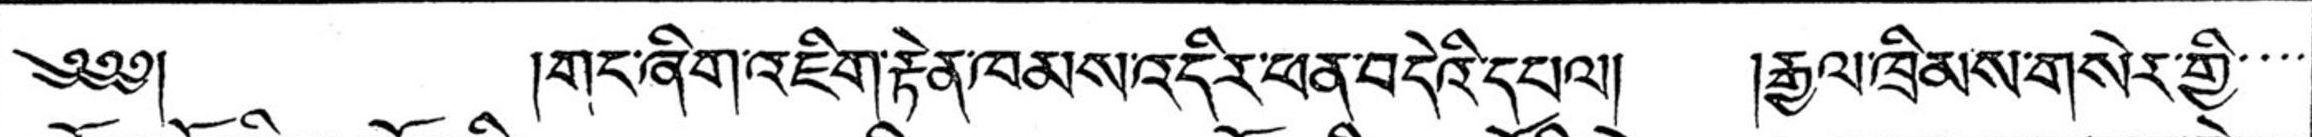༄༅༅། །གང་ཞིག་འཇིག་རྟེན་ཁམས་འདིར་ཕན་བདེའི་དཔལ། །རྒྱལ་ཁྲིམས་གསེར་གྱི་་་་
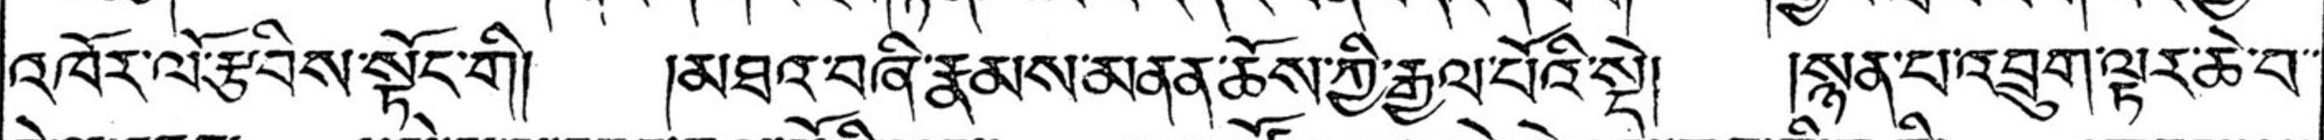འཁོར་ལོ་རྩབིས་སྟོང་གི། །མཐའ་བཞི་རྣམས་མནན་ཆོས་ཀྱི་རྒྱལ་པོའི་སྡེ། །སྙན་པའབྲུག་ལྟར་ཆེ་བ་་
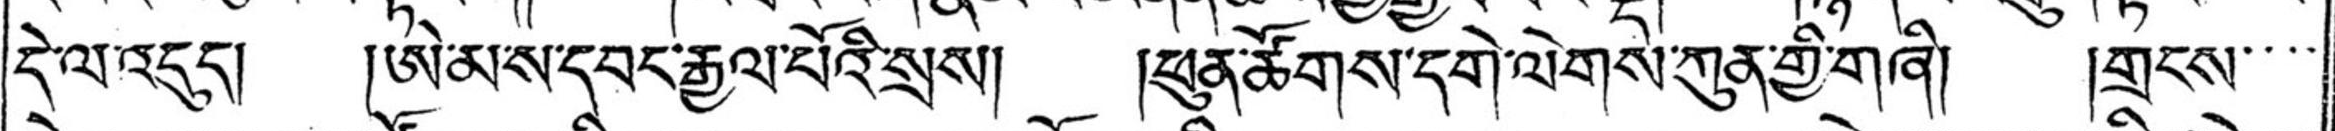དེ་ལ་འདུད། །ཨེ་མ་ས་དབང་རྒྱལ་པོའི་སྲས། །ཕུན་ཚོགས་དགེ་ལེགས་ཀུན་གྱི་གཞི། །གྲངས་་་་
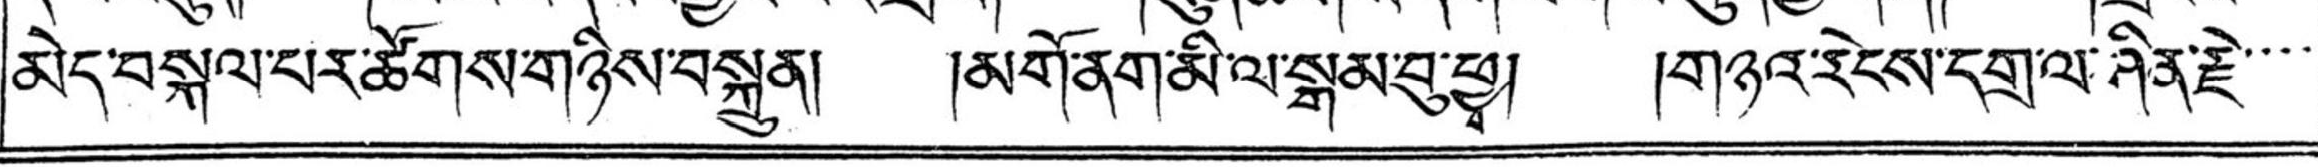མེད་བསྐལ་པར་ཚོགས་གཉིས་བསྐྲུན། །མགོ་ནག་མི་ལ་སྒམ་བུ་ཕྱྭ། །གཉའ་རེངས་དགྲལ་ཤིན་རྗེ་་་་
